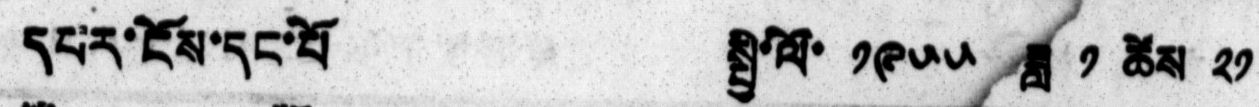དཔར་ངོས་དང་པོ   སྤྱི་ལོ་ ༡༩༥༥ ཟླ་ ༡ ཚེས ༢༡
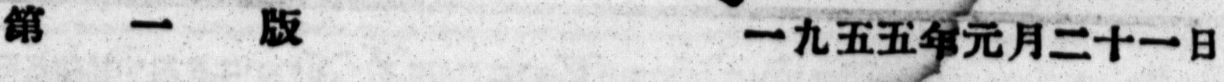第 一 版 一九五五年元月二十一日
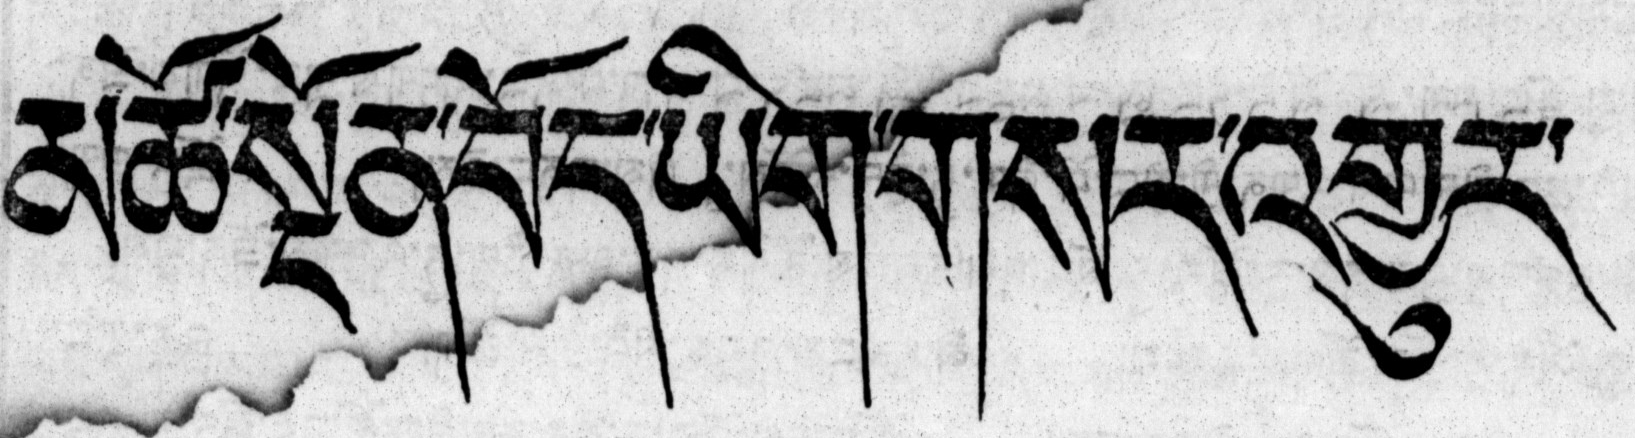མཚོ་སྔོན་བོད་ཡིག་གསར་འགྱུར་
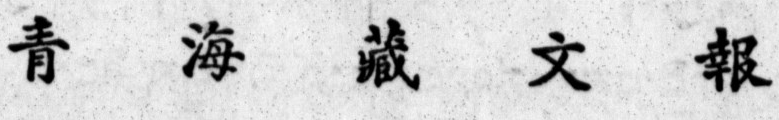青 海 藏 文 報
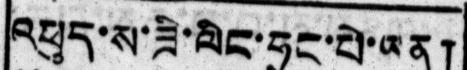འཕུད་ས་ཟི་ལིང་ཧྲང་པེ་ཡན།
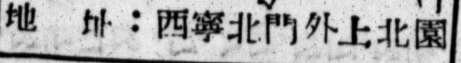地 址：西寧北門外上北園西報文年月上地會
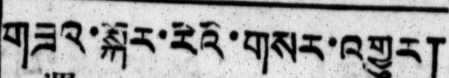གཟའ་སྐོར་རེའི་གསར་འགྱུར།
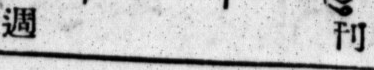週 刊
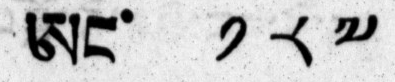ཨང་ ༡༨༧
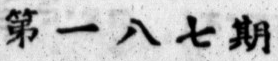第一八七期
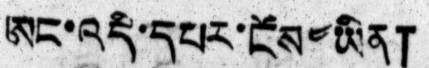ཨང་འདི་དཔར་ངོས༤ཡིན།
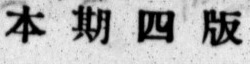本 期 四 版
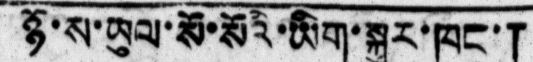ཉོ་ས་ཡུལ་སོ་སོའི་ཡིག་སྐུར་ཁང་།
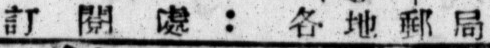訂 閱 處 ： 各 地 郵 局
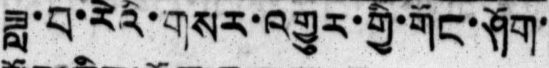ཟླ་བ་རེའི་གསར་འགྱུར་གྱི་གོང་ཤོག
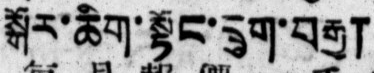སྒོར་ཆིག་སྟོང་དྲུག་བརྒྱ།
